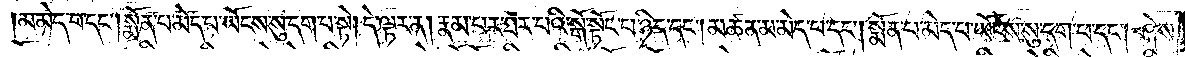མ་མེད་པ་དང༌། སྨོན་པ་མེད་པ་ཡོངས་སུ་དག་པ་སྟེ། དེ་ལྟར་ན། རྣམ་པར་ཐར་པའི་སྒོ་སྟོང་པ་ཉིད་དང༌། མཚན་མ་མེད་པ་དང༌། སྨོན་པ་མེད་པ་ཡོངས་སུ་དག་པ་དང༌། ཤེས་
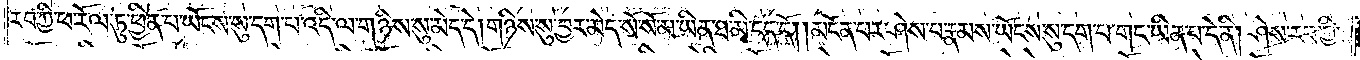རབ་ཀྱི་ཕ་རོལ་ཏུ་ཕྱིན་པ་ཡོངས་སུ་དག་པ་འདི་ལ་གཉིས་སུ་མེད་དེ། གཉིས་སུ་བྱར་མེད་སོ་སོ་མ་ཡིན་ཐ་མི་དད་དོ། །མངོན་པར་ཤེས་བ་རྣམས་ཡོངས་སུ་དག་པ་གང་ཡིན་པ་དེ་ནི། ཤེས་རབ་ཀྱི་
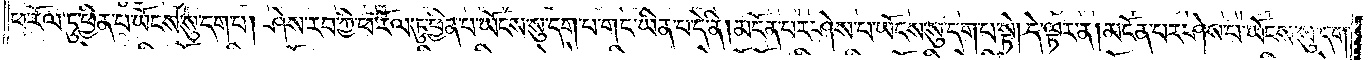ཕ་རོལ་ཏུ་ཕྱིན་པ་ཡོངས་སུ་དག་པ། ཤེས་རབ་ཀྱི་ཕ་རོལ་ཏུ་ཕྱིན་པ་ཡོངས་སུ་དག་པ་གང་ཡིན་པ་དེ་ནི། མངོན་པར་ཤེས་པ་ཡོངས་སུ་དག་པ་སྟེ། དེ་ལྟར་ན། མངོན་པར་ཤེས་པ་ཡོངས་སུ་དག་
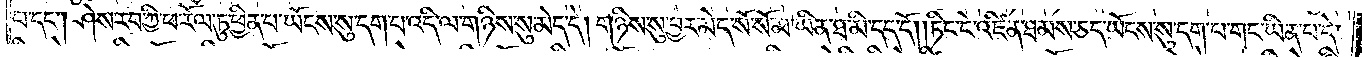པ་དང༌། ཤེས་རབ་ཀྱི་ཕ་རོལ་ཏུ་ཕྱིན་པ་ཡོངས་སུ་དག་པ་འདི་ལ་གཉིས་སུ་མེད་དེ། གཉིས་སུ་བྱར་མེད་སོ་སོ་མ་ཡིན་ཐ་མི་དད་དོ། །ཏིང་ངེ་འཛིན་ཐམས་ཅད་ཡོངས་སུ་དག་པ་གང་ཡིན་པ་དེ་
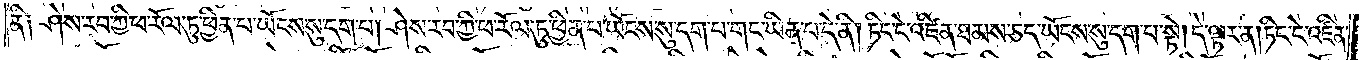ནི༑ ཤེས་རབ་ཀྱི་ཕ་རོལ་ཏུ་ཕྱིན་པ་ཡོངས་སུ་དག་པ། ཤེས་རབ་ཀྱི་ཕ་རོལ་ཏུ་ཕྱིན་པ་ཡོངས་སུ་དག་པ་གང་ཡིན་པ་དེ་ནི། ཏིང་ངེ་འཛིན་ཐམས་ཅད་ཡོངས་སུ་དག་པ་སྟེ། དེ་ལྟར་ན། ཏིང་ངེ་འཛིན་
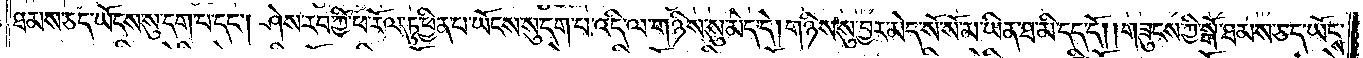ཐམས་ཅད་ཡོངས་སུ་དག་པ་དང༌། ཤེས་རབ་ཀྱི་ཕ་རོལ་ཏུ་ཕྱིན་པ་ཡོངས་སུ་དག་པ་འདི་ལ་གཉིས་སུ་མེད་དེ། གཉིས་སུ་བྱར་མེད་སོ་སོ་མ་ཡིན་ཐ་མི་དད་དོ། །གཟུངས་ཀྱི་སྒོ་ཐམས་ཅད་ཡོངས་
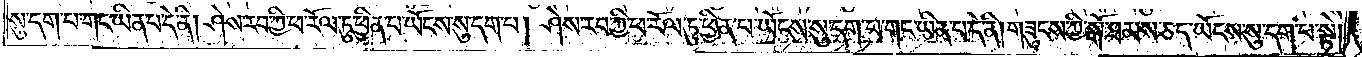སུ་དག་པ་གང་ཡིན་པ་དེ་ནི། ཤེས་རབ་ཀྱི་ཕ་རོལ་ཏུ་ཕྱིན་པ་ཡོངས་སུ་དག་པ། ཤེས་རབ་ཀྱི་ཕ་རོལ་ཏུ་ཕྱིན་པ་ཡོངས་སུ་དག་པ་གང་ཡིན་པ་དེ་ནི། གཟུངས་ཀྱི་སྒོ་ཐམས་ཅད་ཡོངས་སུ་དག་པ་སྟེ།
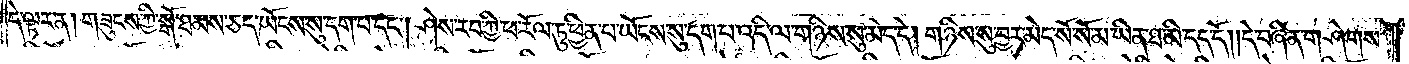དེ་ལྟར་ན། གཟུངས་ཀྱི་སྒོ་ཐམས་ཅད་ཡོངས་སུ་དག་པ་དང༌། ཤེས་རབ་ཀྱི་ཕ་རོལ་ཏུ་ཕྱིན་པ་ཡོངས་སུ་དག་པ་འདི་ལ་གཉིས་སུ་མེད་དེ། གཉིས་སུ་བྱར་མེད་སོ་སོ་མ་ཡིན་ཐ་མི་དད་དོ། །དེ་བཞིན་གཤེགས་
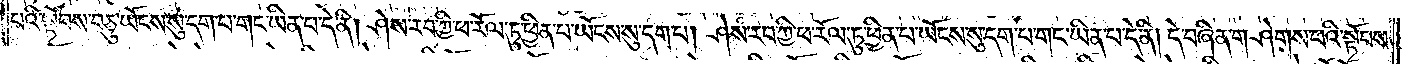པའི་སྟོབས་བཅུ་ཡོངས་སུ་དག་པ་གང་ཡིན་པ་དེ་ནི། ཤེས་རབ་ཀྱི་ཕ་རོལ་ཏུ་ཕྱིན་པ་ཡོངས་སུ་དག་པ། ཤེས་རབ་ཀྱི་ཕ་རོལ་ཏུ་ཕྱིན་པ་ཡོངས་སུ་དག་པ་གང་ཡིན་པ་དེ་ནི། དེ་བཞིན་གཤེགས་པའི་སྟོབས་
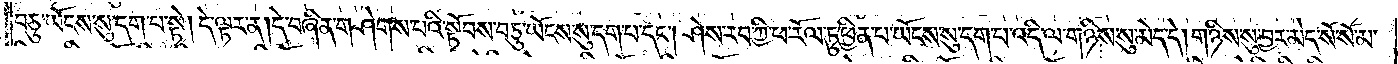བཅུ་ཡོངས་སུ་དག་པ་སྟེ། དེ་ལྟར་ན། དེ་བཞིན་གཤེགས་པའི་སྟོབས་བཅུ་ཡོངས་སུ་དག་པ་དང༌། ཤེས་རབ་ཀྱི་ཕ་རོལ་ཏུ་ཕྱིན་པ་ཡོངས་སུ་དག་པ་འདི་ལ་གཉིས་སུ་མེད་དེ། གཉིས་སུ་བྱར་མེད་སོ་སོ་མ་
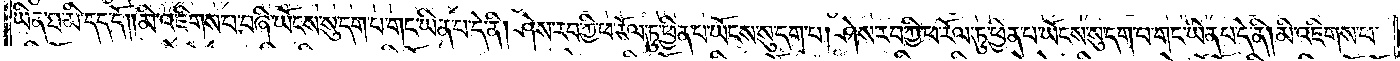ཡིན་ཐ་མི་དད་དོ། །མི་འཇིགས་པ་བཞི་ཡོངས་སུ་དག་པ་གང་ཡིན་པ་དེ་ནི། ཤེས་རབ་ཀྱི་ཕ་རོལ་ཏུ་ཕྱིན་པ་ཡོངས་སུ་དག་པ། ཤེས་རབ་ཀྱི་ཕ་རོལ་ཏུ་ཕྱིན་པ་ཡོངས་སུ་དག་པ་གང་ཡིན་པ་དེ་ནི། མི་འཇིགས་པ་
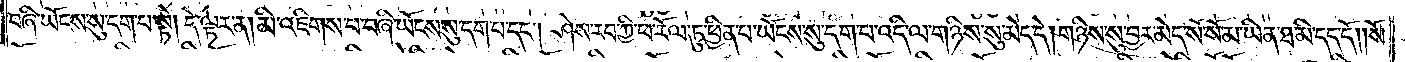བཞི་ཡོངས་སུ་དག་པ་སྟེ། དེ་ལྟར་ན། མི་འཇིགས་པ་བཞི་ཡོངས་སུ་དག་པ་དང༌། ཤེས་རབ་ཀྱི་ཕ་རོལ་ཏུ་ཕྱིན་པ་ཡོངས་སུ་དག་པ་འདི་ལ་གཉིས་སུ་མེད་དེ། གཉིས་སུ་བྱར་མེད་སོ་སོ་མ་ཡིན་ཐ་མི་དད་དོ། །སོ་
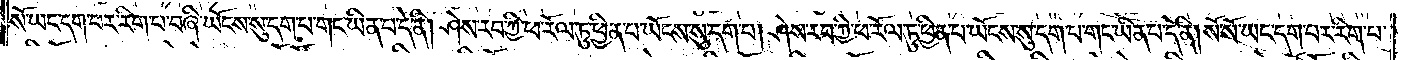སོ་ཡང་དག་པར་རིག་པ་བཞི་ཡོངས་སུ་དག་པ་གང་ཡིན་པ་དེ་ནི། ཤེས་རབ་ཀྱི་ཕ་རོལ་ཏུ་ཕྱིན་པ་ཡོངས་སུ་དག་པ། ཤེས་རབ་ཀྱི་ཕ་རོལ་ཏུ་ཕྱིན་པ་ཡོངས་སུ་དག་པ་གང་ཡིན་པ་དེ་ནི། སོ་སོ་ཡང་དག་པར་རིག་པ་
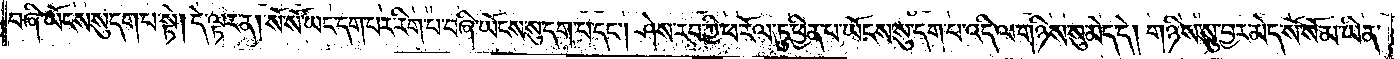བཞི་ཡོངས་སུ་དག་པ་སྟེ། དེ་ལྟར་ན། སོ་སོ་ཡང་དག་པར་རིག་པ་བཞི་ཡོངས་སུ་དག་པ་དང༌། ཤེས་རབ་ཀྱི་ཕ་རོལ་ཏུ་ཕྱིན་པ་ཡོངས་སུ་དག་པ་འདི་ལ་གཉིས་སུ་མེད་དེ། གཉིས་སུ་བྱར་མེད་སོ་སོ་མ་ཡིན་
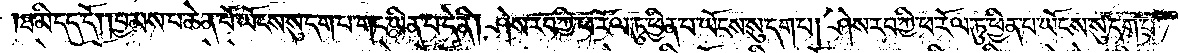ཐ་མི་དད་དོ། །བྱམས་པ་ཆེན་པོ་ཡོངས་སུ་དག་པ་གང་ཡིན་པ་དེ་ནི། ཤེས་རབ་ཀྱི་ཕ་རོལ་ཏུ་ཕྱིན་པ་ཡོངས་སུ་དག་པ། ཤེས་རབ་ཀྱི་ཕ་རོལ་ཏུ་ཕྱིན་པ་ཡོངས་སུ་དག་པ་
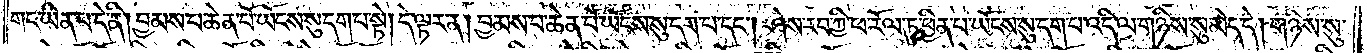གང་ཡིན་པ་དེ་ནི། བྱམས་པ་ཆེན་པོ་ཡོངས་སུ་དག་པ་སྟེ། དེ་ལྟར་ན། བྱམས་པ་ཆེན་པོ་ཡོངས་སུ་དག་པ་དང༌། ཤེས་རབ་ཀྱི་ཕ་རོལ་ཏུ་ཕྱིན་པ་ཡོངས་སུ་དག་པ་འདི་ལ་གཉིས་སུ་མེད་དེ། གཉིས་སུ་
